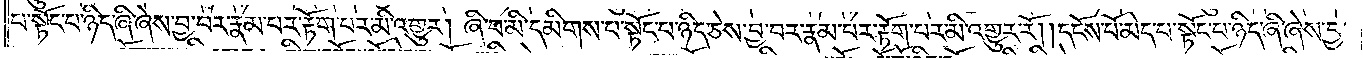པ་སྟོང་པ་ཉིད་ཞི་ཞེས་བྱ་བར་རྣམ་པར་རྟོག་པར་མི་འགྱུར། ཞི་བ་མི་དམིགས་པ་སྟོང་པ་ཉིད་ཅེས་བྱ་བར་རྣམ་པར་རྟོག་པར་མི་འགྱུར་རོ། །དངོས་པོ་མེད་པ་སྟོང་པ་ཉིད་ཞི་ཞེས་བྱ་
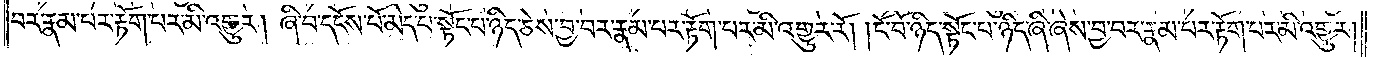བར་རྣམ་པར་རྟོག་པར་མི་འགྱུར། ཞི་བ་དངོས་པོ་མེད་པ་སྟོང་པ་ཉིད་ཅེས་བྱ་བར་རྣམ་པར་རྟོག་པར་མི་འགྱུར་རོ། །ངོ་བོ་ཉིད་སྟོང་པ་ཉིད་ཞི་ཞེས་བྱ་བར་རྣམ་པར་རྟོག་པར་མི་འགྱུར།
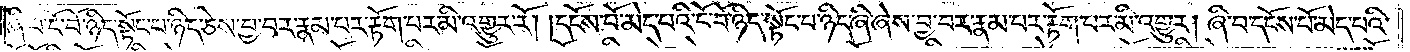ཞི་བ་ངོ་བོ་ཉིད་སྟོང་པ་ཉིད་ཅེས་བྱ་བར་རྣམ་པར་རྟོག་པར་མི་འགྱུར་རོ། །དངོས་པོ་མེད་པའི་ངོ་བོ་ཉིད་སྟོང་པ་ཉིད་ཞི་ཞེས་བྱ་བར་རྣམ་པར་རྟོག་པར་མི་འགྱུར། ཞི་བ་དངོས་པོ་མེད་པའི་
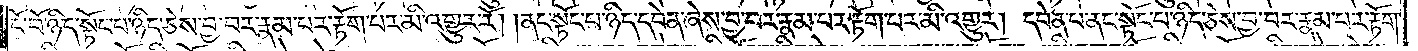ངོ་བོ་ཉིད་སྟོང་པ་ཉིད་ཅེས་བྱ་བར་རྣམ་པར་རྟོག་པར་མི་འགྱུར་རོ། །ནང་སྟོང་པ་ཉིད་དབེན་ཞེས་བྱ་བར་རྣམ་པར་རྟོག་པར་མི་འགྱུར། དབེན་པ་ནང་སྟོང་པ་ཉིད་ཅེས་བྱ་བར་རྣམ་པར་རྟོག་
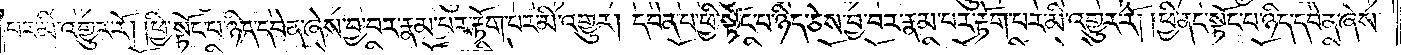པར་མི་འགྱུར་རོ། །ཕྱི་སྟོང་པ་ཉིད་དབེན་ཞེས་བྱ་བར་རྣམ་པར་རྟོག་པར་མི་འགྱུར། དབེན་པ་ཕྱི་སྟོང་པ་ཉིད་ཅེས་བྱ་བར་རྣམ་པར་རྟོག་པར་མི་འགྱུར་རོ། །ཕྱི་ནང་སྟོང་པ་ཉིད་དབེན་ཞེས་
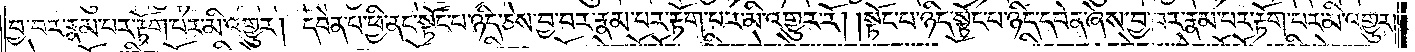བྱ་བར་རྣམ་པར་རྟོག་པར་མི་འགྱུར། དབེན་པ་ཕྱི་ནང་སྟོང་པ་ཉིད་ཅེས་བྱ་བར་རྣམ་པར་རྟོག་པར་མི་འགྱུར་རོ། །སྟོང་པ་ཉིད་སྟོང་པ་ཉིད་དབེན་ཞེས་བྱ་བར་རྣམ་པར་རྟོག་པར་མི་འགྱུར།
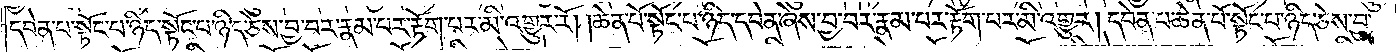དབེན་པ་སྟོང་པ་ཉིད་སྟོང་པ་ཉིད་ཅེས་བྱ་བར་རྣམ་པར་རྟོག་པར་མི་འགྱུར་རོ། །ཆེན་པོ་སྟོང་པ་ཉིད་དབེན་ཞེས་བྱ་བར་རྣམ་པར་རྟོག་པར་མི་འགྱུར། དབེན་པ་ཆེན་པོ་སྟོང་པ་ཉིད་ཅེས་བྱ་
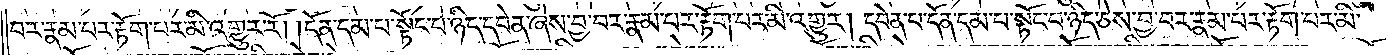བར་རྣམ་པར་རྟོག་པར་མི་འགྱུར་རོ། །དོན་དམ་པ་སྟོང་པ་ཉིད་དབེན་ཞེས་བྱ་བར་རྣམ་པར་རྟོག་པར་མི་འགྱུར། དབེན་པ་དོན་དམ་པ་སྟོང་པ་ཉིད་ཅེས་བྱ་བར་རྣམ་པར་རྟོག་པར་མི་
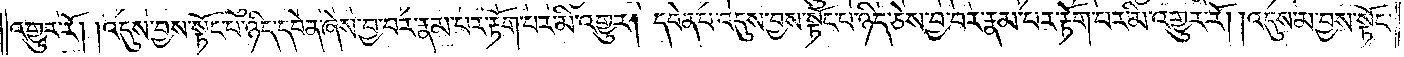འགྱུར་རོ། །འདུས་བྱས་སྟོང་པ་ཉིད་དབེན་ཞེས་བྱ་བར་རྣམ་པར་རྟོག་པར་མི་འགྱུར། དབེན་པ་འདུས་བྱས་སྟོང་པ་ཉིད་ཅེས་བྱ་བར་རྣམ་པར་རྟོག་པར་མི་འགྱུར་རོ། །འདུས་མ་བྱས་སྟོང་
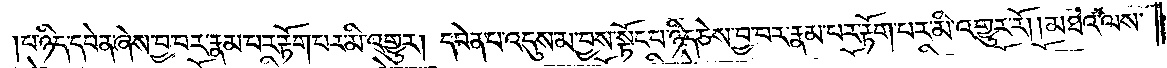པ་ཉིད་དབེན་ཞེས་བྱ་བར་རྣམ་པར་རྟོག་པར་མི་འགྱུར། དབེན་པ་འདུས་མ་བྱས་སྟོང་པ་ཉིད་ཅེས་བྱ་བར་རྣམ་པར་རྟོག་པར་མི་འགྱུར་རོ། །མཐའ་ལས་
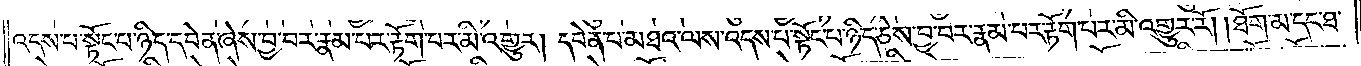འདས་པ་སྟོང་པ་ཉིད་དབེན་ཞེས་བྱ་བར་རྣམ་པར་རྟོག་པར་མི་འགྱུར། དབེན་པ་མཐའ་ལས་འདས་པ་སྟོང་པ་ཉིད་ཅེས་བྱ་བར་རྣམ་པར་རྟོག་པར་མི་འགྱུར་རོ། །ཐོག་མ་དང་ཐ་
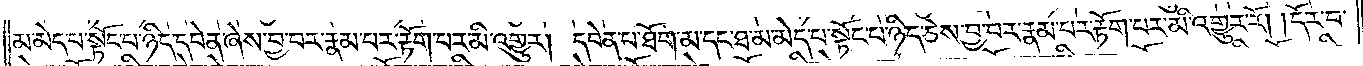མ་མེད་པ་སྟོང་པ་ཉིད་དབེན་ཞེས་བྱ་བར་རྣམ་པར་རྟོག་པར་མི་འགྱུར། དབེན་པ་ཐོག་མ་དང་ཐ་མ་མེད་པ་སྟོང་པ་ཉིད་ཅེས་བྱ་བར་རྣམ་པར་རྟོག་པར་མི་འགྱུར་རོ། །དོར་བ་
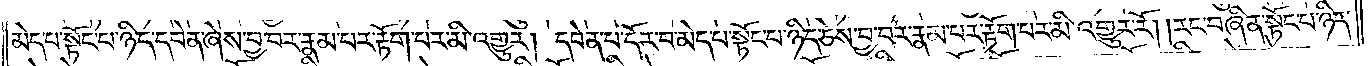མེད་པ་སྟོང་པ་ཉིད་དབེན་ཞེས་བྱ་བར་རྣམ་པར་རྟོག་པར་མི་འགྱུར། དབེན་པ་དོར་བ་མེད་པ་སྟོང་པ་ཉིད་ཅེས་བྱ་བར་རྣམ་པར་རྟོག་པར་མི་འགྱུར་རོ། །རང་བཞིན་སྟོང་པ་ཉིད་
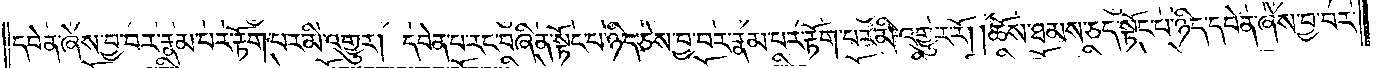དབེན་ཞེས་བྱ་བར་རྣམ་པར་རྟོག་པར་མི་འགྱུར། དབེན་པ་རང་བཞིན་སྟོང་པ་ཉིད་ཅེས་བྱ་བར་རྣམ་པར་རྟོག་པར་མི་འགྱུར་རོ། །ཆོས་ཐམས་ཅད་སྟོང་པ་ཉིད་དབེན་ཞེས་བྱ་བར་
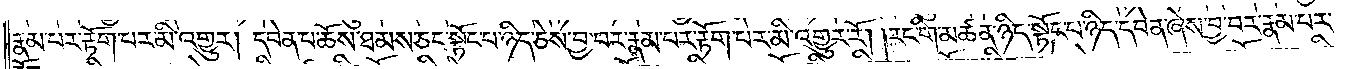རྣམ་པར་རྟོག་པར་མི་འགྱུར། དབེན་པ་ཆོས་ཐམས་ཅད་སྟོང་པ་ཉིད་ཅེས་བྱ་བར་རྣམ་པར་རྟོག་པར་མི་འགྱུར་རོ། །རང་གི་མཚན་ཉིད་སྟོང་པ་ཉིད་དབེན་ཞེས་བྱ་བར་རྣམ་པར་
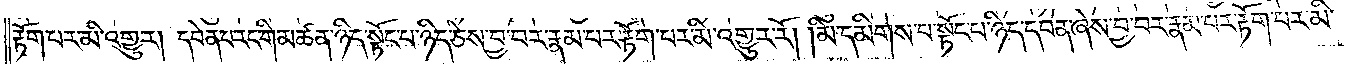རྟོག་པར་མི་འགྱུར། དབེན་པ་རང་གི་མཚན་ཉིད་སྟོང་པ་ཉིད་ཅེས་བྱ་བར་རྣམ་པར་རྟོག་པར་མི་འགྱུར་རོ། །མི་དམིགས་པ་སྟོང་པ་ཉིད་དབེན་ཞེས་བྱ་བར་རྣམ་པར་རྟོག་པར་མི་
